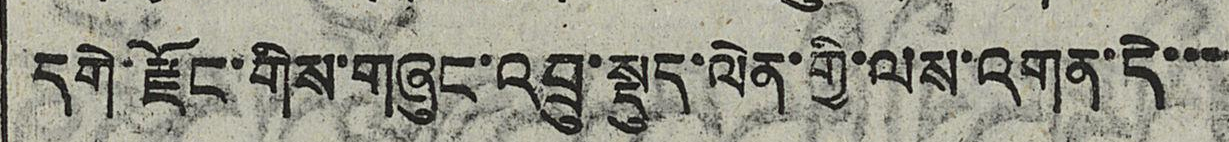དགེ་རྫོང་གིས་གཞུང་འབྲུ་སྤུད་ལེན་གྱི་ལས་འགན་དེ་་་
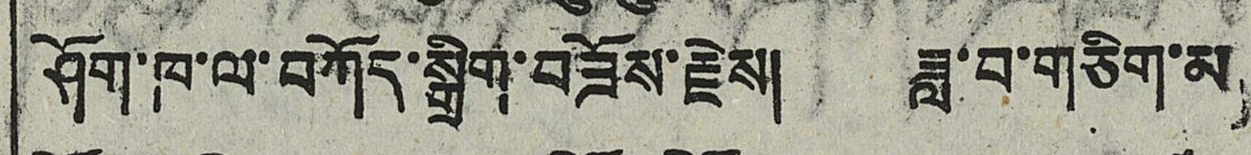ཤོག་ཁ་ལ་བཀོད་སྒྲིག་བཟོས་རྗེས། ཟླ་བ་གཅིག་མ
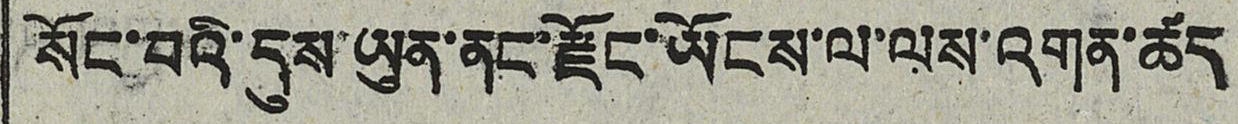སོང་བའི་དུས་ཡུན་ནང་རྫོང་ཡོངས་ལ་ལས་འགན་ཚད
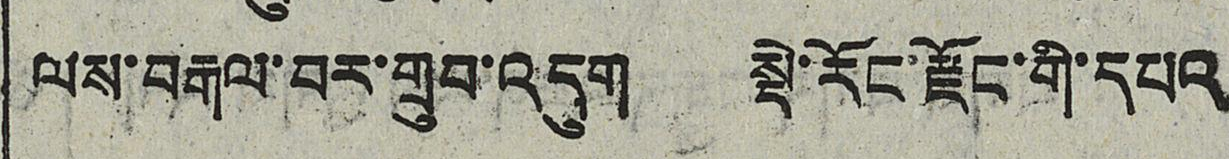ལས་བརྒལ་བར་གྲུབ་འདུག སྡེ་རོང་རྫོང་གི་དཔའ
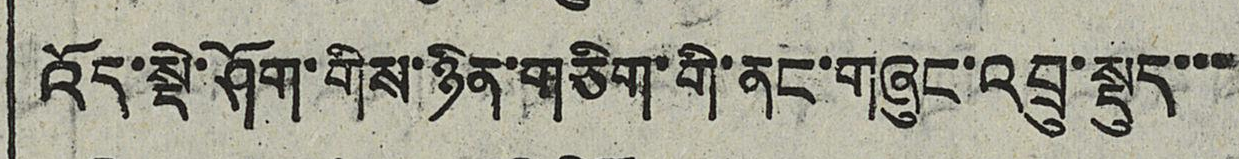འོད་སྡེ་ཤོག་གིས་ཉིན་གཅིག་གི་ནང་གཞུང་འབྲུ་སྤུད་་་
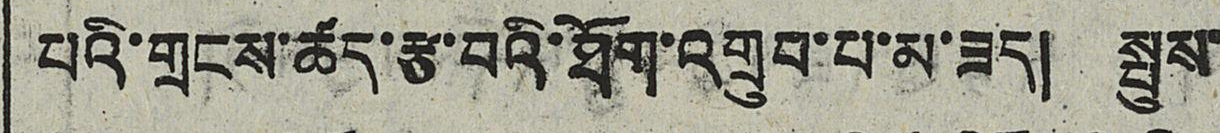པའི་གྲངས་ཚད་རྩ་བའི་ཐོག་འགྲུབ་པ་མ་ཟད། སྤུས་
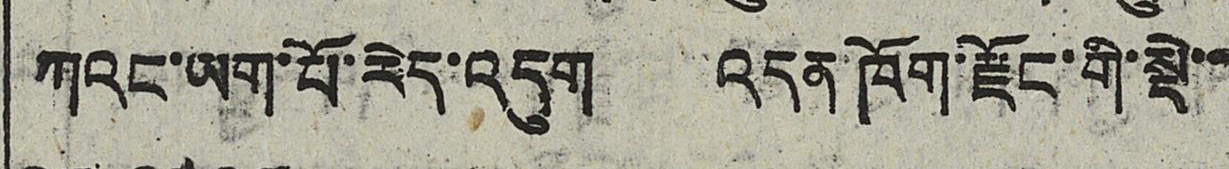ཀའང་ཡག་པོ་རེད་འདུག འདུན་ཁོག་རྫོང་གི་སྡེ་་
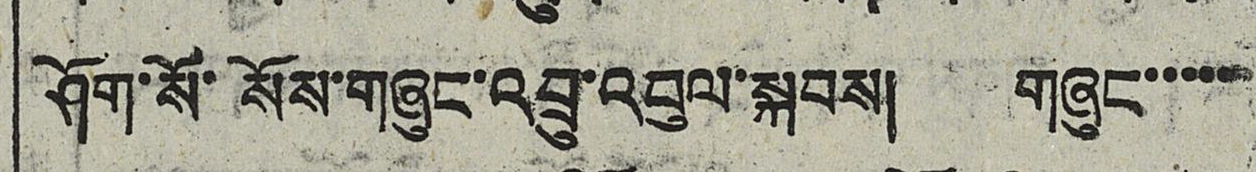ཤོག་སོ་སོས་གཞུང་འབྲུ་འབུལ་སྐབས། གཞུང་་་་་
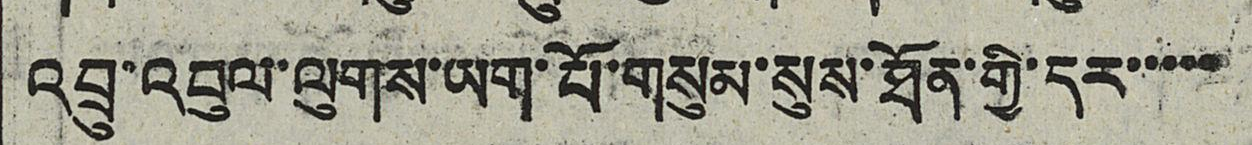འབྲུ་འབུལ་ལུགས་ཡག་པོ་གསུམ་སུས་ཐོན་གྱི་དར་་་་་
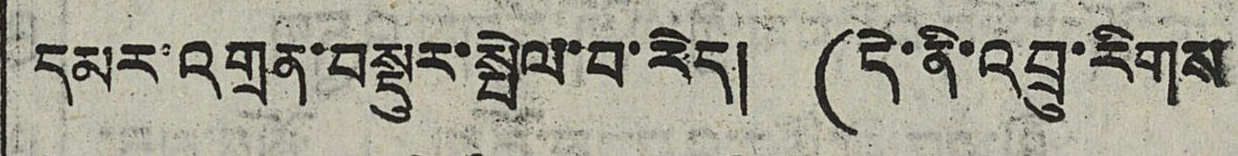དམར་འགྲུན་བསྡུར་སྤེལ་བ་རེད། (དེ་ནི་འབྲུ་རིགས་
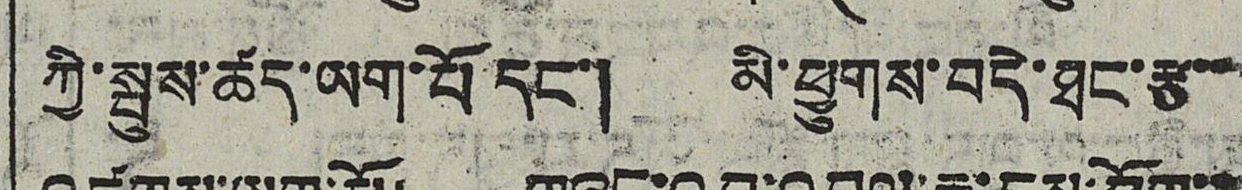ཀྱི་སྤུས་ཚད་ཡག་པོ་དང་། མི་ཕྱུགས་བདེ་ཐང་རྩ་་
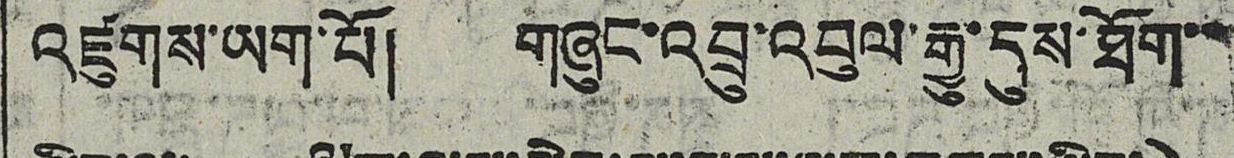འཛུགས་ཡག་པོ། གཞུང་འབྲུ་འབུལ་རྒྱུ་དུས་ཐོག་་
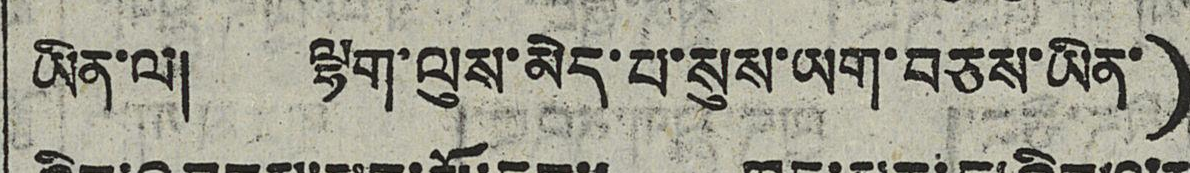ཡིན་ལ། ལྷག་ལུས་མེད་པ་སུས་ཡག་བཅས་ཡིན་)
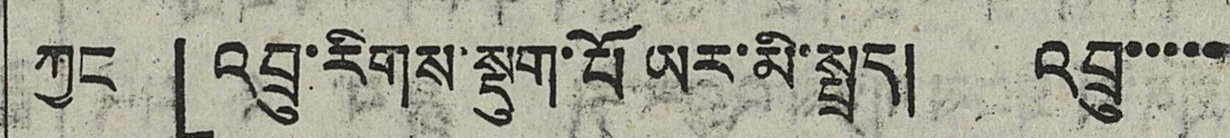ཀྱང 「འབྲུ་རིགས་སྡུག་པོ ཡར་མི་སྤྲད། འབྲུ་་་་་
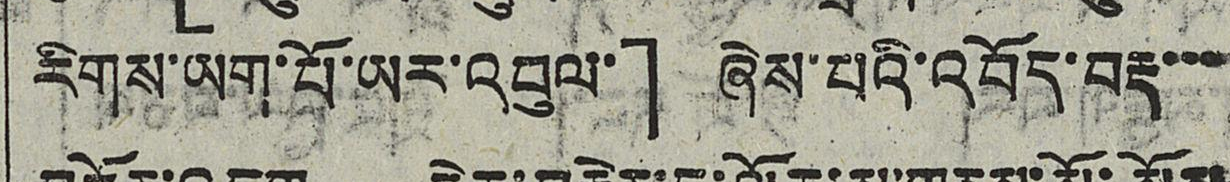རིགས་ཡག་པོ་ཡར་འབུལ་」 ཞེས་པའི་འབོད་བརྡ་་་
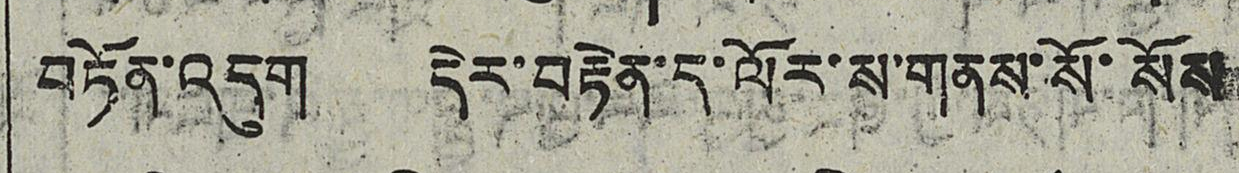བཏོན་འདུག དེར་བརྟེན་ད་ལོར་ས་གནས་སོ་སོས
